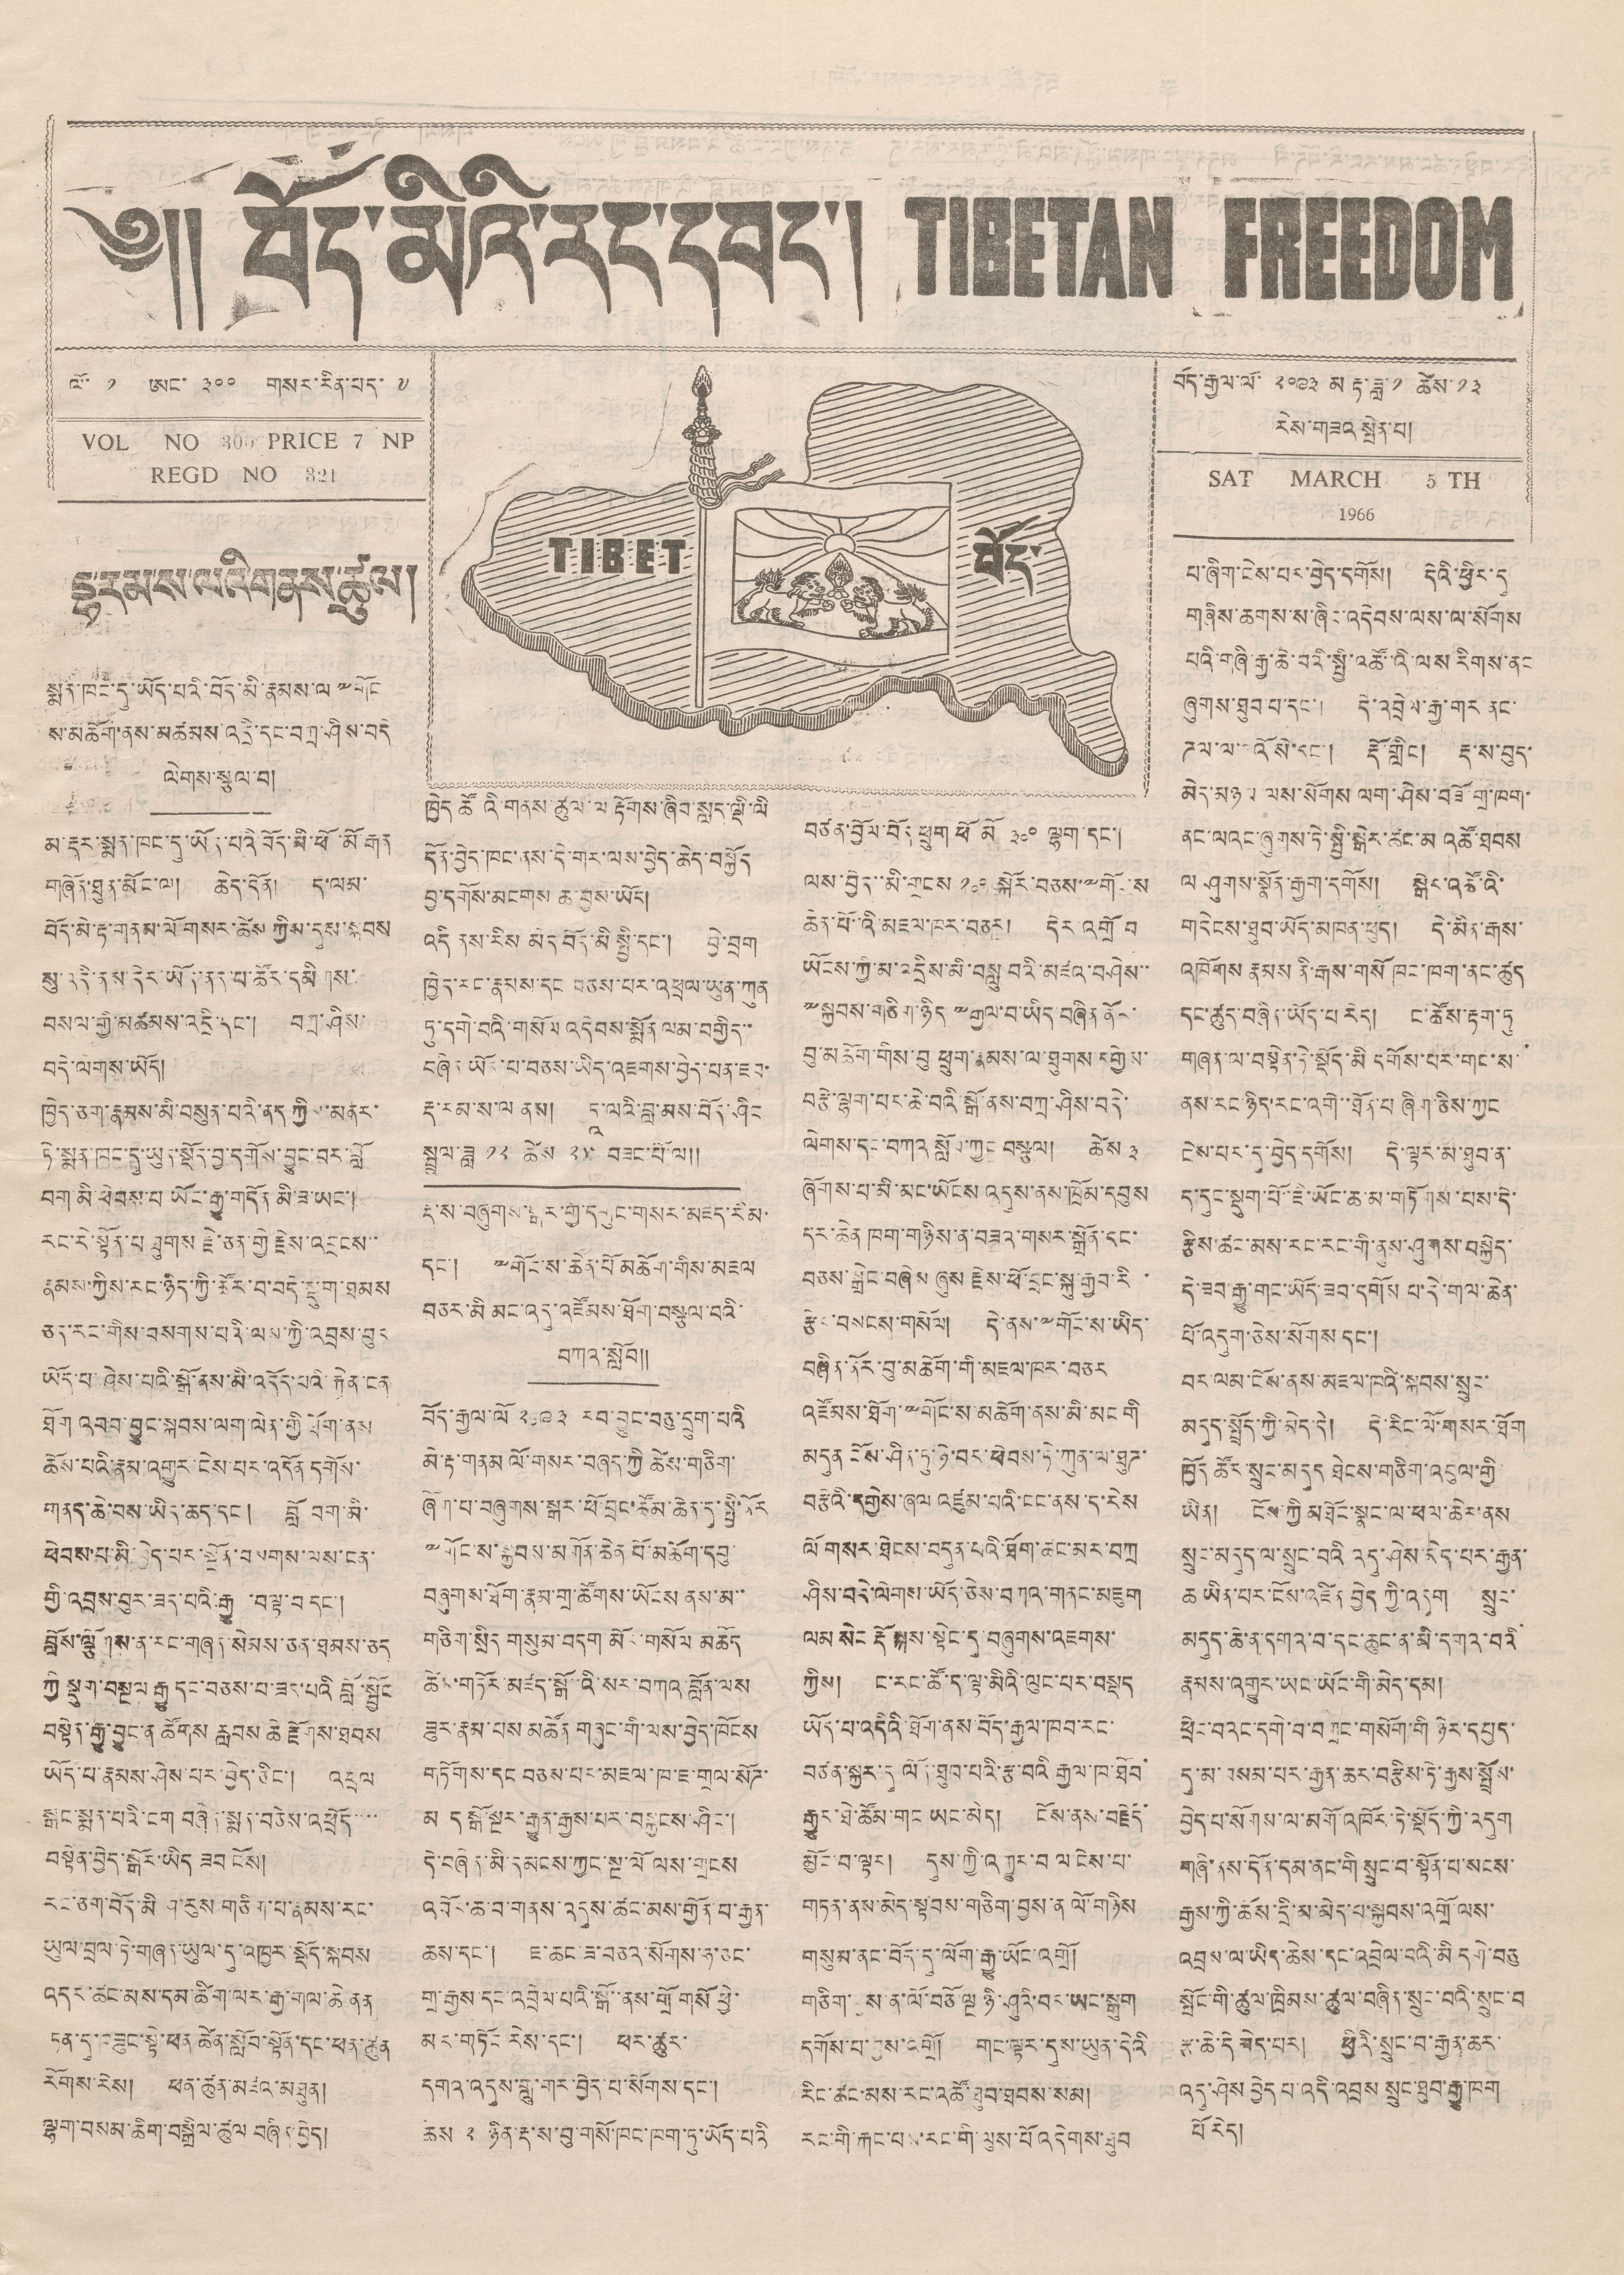༄།། བོད་མིའི་རང་དབང་། TIBETAN FREEDOM
TIBET བོད་
ལོ་ ༡ ཨང་ ༣༠༠ གསར་རིན་པད་ ༧
VOL NO 300 PRICE / NP
REGD NO 321
བོད་རྒྱལ་ལོ་ ༢༠༩༣ མ་རྟ་ཟླ་ ༡ ཚེས་ ༡༣
རེས་གཟའ སྤེན་པ།
SAT MARCH 5 TH
1966
དྷ་རམ་ས་ལའི་གནས་ཚུལ།
སྨན་ཁང་དུ་ཡོད་པའི་བོད་མི་རྣམས་ལ་༸གོང
ས་མཆོག་ནས་མཚམས འདྲི་དང་བཀྲ་ཤིས་བདེ
ལེགས་སྩལ་བ།
མ་རྡར་སྨན་ཁང་དུ་ཡོད་པའི་བོད་མི་ཕོ་མོ་རྒན
གཞོན་ཐུན་མོང་ལ། ཆེད་དོན། ད་ལམ་
བོད་མེ་རྟ་གནམ་ལོ་གསར་ཚེས ཀྱིས་དུས་སྐབས
སུ་འདི་ནས་དེར་ཡོད་ནད་མ་ཚོར་དམིགས་
བསལ་གྱི་མཚམས་འདྲི་དང་། བཀྲ་ཤིས་
བདེ་ལེགས་ཡོད།
ཁྱེད་ཅག་རྣམས་མི་བསུན་པའི་ནད ཀྱིས་མནར་
ཏེ་སྨན་ཁང་དུ་ཡུན་སྡོད་བྱ་དགོས་བྱུང་བར་བློ
བག་མི་ཕེབས་པ ཡོང་རྒྱུ་གདོན མི་ཟ་ཡང་།
རང་རེ་སྟོན་པ་ཐུགས་རྗེ་ཅན་གྱི་རྗེས་འབྲངས་་
རྣམས་ཀྱིས་རང་ཉིད་ཀྱི་ཚོར་བ་བདེ་སྡུག་ཐམས
ཅད་རང་གིས་བསགས་པའི་ལས་ཀྱི་འབྲས་བུར
ཡོད་པ་ཤེས་པའི་སྒོ་ནས་མི་འདོད་པའི་རྐྱེན་ངན
ཐོག འབབ་བྱུང་སྐབས་ལག་ལེན་གྱི་ཐོག་ནས
ཆོས་པའི་རྣམ་འགྱུར་ངེས་པར་འདོན་དགོས་
གནད་ཆེ་བས་ཡིད་ཆད་དང་། བློ བག་མི་
ཕེབས་པ་མི་བྱེད་པར་སྔོན་བསགས་ལས་ངན་
གྱི་འབྲས་བུར་ཟད་པའི་རྒྱུ ་བལྟ་བ དང་།
བློས་ལྕོགས་ན་རང་གཞན་སེམས་ཅན་ཐམས་ཅད
ཀྱི སྡུག་བསྔལ རྒྱུ དང་བཅས་པ་ཟད་པའི བློ་སྦྱོང
བསྟེན་རྒྱུ་བྱུང་ན ཚོགས རླབས ཆེ རྫོགས་ཐབས
ཡོད་པ་སྣམས་ཤེས་པར་བྱེད་ཅིང་། འཕྲལ་
སྒང་སྨན་པའི་ངག བཞིན་སྨན་བཅེས་འཕྲོད་་་་
བསྟེན་བྱེད་སྒོར་ཡིད ཟབ ངོས།
རང་ཅག་བོད་མི ཤ་རུས གཅིག་པ་རྣམས་རང་
ཡུལ་བྲལ་ཏེ་གཞན་ཡུལ་དུ་འཁྱར་སྡོད་སྐབས
འདར་ཚང་མས་དམ་ཚིག་ལར་རྒྱ་གལ་ཆེ་ནན
ཏན་དུ་བཟུང་སྟེ་ཕན་ཚེན་སློབ་སྟོན་དང་ཕན་ཚུན
རོགས་རེས། ཕན་ཚུན་མཛའ་མཐུན།
ལྷག་བསམ་ཆིག་བསྒྲིལ་ཚུལ བཞིན་བྱེད།
ཁྱེད ཚོ འི་གནས་ཚུལ་ལ རྟོགས་ཞིབ་སླད་ལྡི་ལི
དོན་བྱེད་ཁང་ནས་དེ་གར་ལས་བྱེད་ཆེད་བསྐྱོད
བྱ་དགོས་མངགས ཆ་བྱས་ཡོང།
འདི ནས་རིས མེད་བོད་མི་སྤྱི་དང་། བྱེ་བྲག
ཁྱེད་རང་རྣམས་དང བཅད་པར་འཕྲལ་ཡུན་ཀུན
ཏུ་དགེ་བའི་གསོལ འདེབས་སྨོན ལམ་བགྱིད་་
བཞིན ཡོད་པ་བཅས་ཡིད་འཇགས་བྱེད་པན་ཇབ་
རྡ་རམ་ས་ལ ནས། ཏཱ་ལའི་བླ་མ་བོད་ཤིང
སྦྲུལ་ཟླ ༡༢ ཚེས ༢༥ བཟང་པོ་ལ།།
རྡ་ས་བཞུགས་སྒར་གྱི་དགུང་གསར་མཛད་རིན་
དང་། ༸གོང་ས་ཆེན་པོ མཆོག་གིས་མཇལ
བཅར་མི མང་འདུ་འཛོམས་ཐོག་བསྩལ་བའི་
བཀའ་སློབ།།
བོད་རྒྱལ་ལོ ༢༦༩༣ རབ་བྱུང་བཅུ་དྲུག་པའི
མེ་རྟ་གནམ་ལོ་གསར་བཞད་ཀྱི ཚེས་གཅིག་
ཞོག་པ་བཞུགས་སྒར་ཕོ་བྲང་ཚོམ་ཆེད་དུ་སྤྱི་ནོར
༸གོང་ས་སྐྱབས་མགོན་ཆེན་པོ་མཆོག་དབུ་
བཞུགས་ཐོག་རྣམ་གྲ་ཚོགས་ཡོངས ནས་མ་་
གཅིག་སྲིད གསུམ་བདག་མོར་གསོལ མཆོད
ཚེས་གཏོར་མཛད་སྒོ་་འི་སར་བཀའ་བློན་ལས
ཟུར་རྣམ་པས་མཚོན་གཞུང་གུ་ལས་བྱེད་ཁོངས
གཏོགས་དང་བཅས་པར་མཇལ་ཁ་ཇ་གྲལ་སོཌ་
མ ད སྒོ་སྔར་རྒྱུན་རྒྱས་པར་བསྐྱངས་ཤིང་།
དེ་བཞིན་མི་དམངས་ཀྱང་སྔ་ལོ ལས་གྲངས
འབོར་ཆ་བ་གནས་འདུས་ཚང་མས་གྱོན་པ་རྒྱན་
ཆས་དང་། ཇ་ཆང་ཟ་བཅའ་སོགས་ཧ་ཅང་
གྲ་རྒྱས་དང་འབྲེལ་པའི་སྒོ་་ནས་གྲོ གསོ ཕྱེ་
མར་གཏོར་རེས་དང་། ཕར་ཚུར་
དགའ་འདུས་གླུ་གར་བྱེད་པ་སོགས་དང་།
ཚེས ༢ ཉིན་རྡ་ས་བུ་གསོ་ཁང་ཁག་ཏུ་ཡོད་པའི
བཙན་བྱོལ་བོད ཕྲུག་ཕོ མོ ༣༠༠ ལྷག་དང་།
ལས་བྱེད་་མི་གྲངས་ ༡༠༠ སྐོར་བཅས་༸གོངས
ཆེན་པོ་་འི་མཇལ་ཁར་བཅར། དེར་འགྲོ བ
ཡོངས་ཀྱི་མ་འདྲེས་མི་བསླུ་བའི་མཛད་བཤེས་་
༸སྐྱབས་གཅིག་ཉིད༸རྒྱལ་བ་ཡིད་བཞིན་ནོར་
བུ་མཆོག་གིས་བུ ཕྲུག་རྣམས་པ་ཐུགས དགྱེས་
བརྩེ་ལྷག་པར་ཆེ་བའི་སྒོ་ནས་བཀྲ་ཤིས་བདེ་
ལེགས་དང་བཀའ་སློབ་ཀྱང་བསྩལ། ཚེས ༣
ཞོགས་པ་མི་མང་ཡོངས འདུས་ནས་ཁྲོམ་དབུས
དར་ཆེན ཁག་གཉིས་ན་བཟའ་གསར་སྒྲོན་དང་
བཅས་སྒྲེང་བཞེས ཞུས རྗེས་ཕོ་བྲང་སྐུ་རྒྱབ་རི་
རྩེད་བསངས་གསོལ། དེ་ནས་༸གོང་ས་ཡིད་
བཞིན་ནོར་བུ་མཆོག་གི་མཇལ་ཁར་བཅར
འཇོམས་ཐོག་༸གོང་ས་མཆོག་ནས་མི་མང གི
མདུན ངོས་ཤིན་ཏུ་ཉེ་བར་ཕེབས་ཏེ་ཀུན་ལ་ཐུཌ་
བརྩེའི་དགྱེས་ཞལ འཛུམ་པའི་ངང་ནས་ད་རེས
ལོ གསར་ཐེངས་བདུན་པའི་ཐོག་ཚང་མར་བཀྲ
ཤིས་བདེ་ལེགས་ཡོད་ཅེས་བཀའ་གནང་མཇུག
ལམ སེང རྡོ་སྐས་སྟེང་དུ བཞུགས་འཇགས་
ཀྱིས། ང་རང་ཚོ་ད་ལྟ་མིའི་ལུང་པར་བསྡད
ཡོད་པ་འདིའི་ཐོག་ནས་བོད་རྒྱལ་ཁབ་རང་
བཙན་སྐྱར་དུ ལོན་ཐུབ་པའི་རྩ་བའི རྒྱལ་ཁ་ཐོབ་
རྒྱུར་ཐེ་ཚོམ་གང ཡང་མེད། ངོས་ནས་བརྗོད
མྱོང་བ་ལྟར། དུས་ཀྱི་འགྱུར་བ ལ་ངེས་པ་
གཏན་ནས་མེད་སྟབས་གཅིག་བྱས་ན ལོ་གཉིས
གསུམ་ནང་བོད་དུ་ལོག་རྒྱུ་ཡོང་འགྲོ།
གཅིག་བྱས་ན་ལོ་བཅོ་ལྔ ཉི་ཤུའི་བར་ཡང་སྒུག
དགོས་པ་བྱས་འགྲོ། གང་ལྟར་དུས་ཡུལ་དེའི
རིང་ཚང་མས་རང་འཚོ་ཐུབ་ཐབས་སམ།
རང་གི་རྐང་བས་རང་གི་ལུས་པོ་འདེགས་ཐུབ
པ་ཞིག་ངེས་པར་བྱེད་དགོས། དེའི་ཕྱིར་དུ
གཞིས་ཆགས་ས་ཞིང་འདེབས་ལས་ལ་སོགས
པའི་གཞི་རྒྱ་ཆེ་བའི་སྤྱི་འཚོ་་འི་ལས རིགས་ནང
ཞུགས་ཐུབ་པ་དང་། དེ་འབྲེལ་རྒྱ་གར་ནང་
ཌལ་ལ་འོ སེ་དང་། རྡོ་གླིང། རྡ་ས་བུད་
མེད་མཉམ ལས་སོགས ལག་ཤེས་བཟོ་གྲ་ཁག་
ནང་ལའང་ཞུགས་ཏེ་སྤྱི་སྒེར་ཚང་མ ཚང་མ འཚོ་ཐབས
ལ ཤུགས་སྣོན་རྒྱག་དགོས། སྒེར་འཚོའི་
གདེངས་ཐུབ་ཡོད་མཁན་ཕུད། དེ་མིན་རྒས་
འཁོགས རྣམས ནི་རྒས་གསོ ཁང་ཁག་ནང་ཚུད
དང་ཚུད་བཞིན་ཡོད་པ རེད། ང་ཚོས་རྟག་ཏུ
གཞན་ལ་བསྟེན་ཏེ་སྡོད་མི་དགོས་པར་གང་ས་
ནས་རང་ཉིད་རང་འགེ་་ཐོན་པ ཞིག་ཅིས་ཀྱང
ངེས་པར་དུ་བྱེད་དགོས། དེ་ལྟར་མ་ཐུབ་ན་
ད་དུང་སྡུག་པོ་ཇི་ཡོང་ཆ་མ་གཏོགས་པས་དེ་
རྩིས་ཚང་མས་རང་རང་གི་ནུས་ཤུགས་བསྐྱེད་
དེ་ཟབ་རྒྱུ་གང་ཡོད་ཟབ་དགོས པ་དེ་གལ་ཆེན་
པོ་འདུག་ཅེས་སོགས་དང་།
བར་ལམ་ངོས་ནས་མཇལ་ཁའི་སྐབས་སྲུང་
མདུད་སྤྲོད་ཀྱི་མེད་དེ། དེ་རིང་གསར་ཐོག
ཁྱོད་ཚིར་སྲུང་མདུད ཐེངས་གཅིག་འབུས་གྱི་
ཡིན། ངོས་ཀྱི་མཐོང་སྣང་ལ་ཕལ་ཆེར་ནས
སྲུང་མདུད་ལ་སྲུང་བའི འདུ་ཤེས་མེད་པར་རྒྱན་
ཆ་ཡིན་པར་ངོས་འཛིན བྱེད ཀྱི་འདུག སྲུང་
མདུད་ཆེ་ན་དགའ་བ་དང་ ཆུང་ན་མི་དགའ་བའི་
རྣམས་འགྱུར་ཡང་ཡོང་གི་མེད་དམ།
ཕྲེང་བའང་དགེ་བ་བགྲང་གསོག་གི ཉེར་དཔྱད་
དུ་མ་བསམ་པར་རྒྱན་ཆར་བརྩིས་ཏེ་རྒྱས་སྤྲོས་
བྱེད་པ་སོགས་ལ་མགོ་འཁོར་ཏེ་སྡོད་ཀྱི་འདུག
གཞི་ནས་དོན་དམ་ནང་གི སྲུང་བ་སྟོན་པ་སངས་
རྒྱས་ཀྱི་ཆོས་དྲི་མ་མེད་པ་སྐྱབས་འགྲོ་ལས་
འབྲས་པ་ཡིད་ཆེས་དང་འབྲེལ་པའི་མི དགེ་བཅུ
སྤོང་གི་ཚུལ་ཁྲིམས་ཚུན་བཞིན་སྲུང་བའི་སྲུང་བ
རྩ་ཆེ་དེ མེད་པར། ཕྱིའི་སྲུང་བ་རྒྱན་ཆར་
འདུ་ཤེས བྱེད་པ་འདི་འབྲས སྲུང་ཐུབ་རྒྱུ་ཁག
པོ་རེད།
